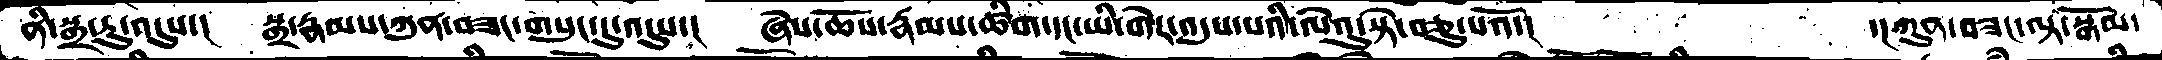ནི་སྒྲ་རུ་འདུས་།  སྒྲ་རྣམས་ཀུན་བཟང་གསུང་དུ་འདུས་།  ཞེས་ཆོས་རྣམས་ཚིག་དང་ཡི་གེར་འདུས་པའི་ལེའུ་སྟེ་བཅུ་པའོ་།        ་།ཀུན་་བཟང་ལྟ་སྒོམ་
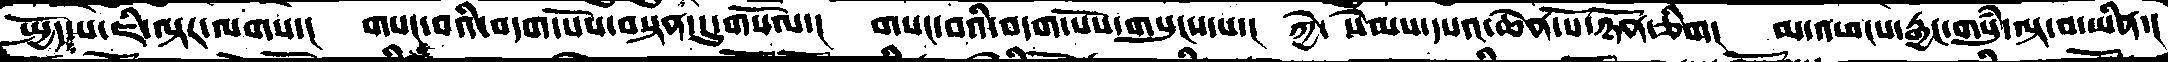སྤྱོད་པ་ཇི་ལྟར་ལགས་།  གསང་བའི་བདག་པོས་བསྟན་དུ་གསོལ་།  གསང་བའི་བདག་པོས་གསུངས་པ་།   ཀྱེ་ སེམས་དཔའ་ཆེན་པོ་ཉོན་ཅིག།  མ་འཕངས་རྒྱང་གསུཾ་ལྟ་བ་ཡིན་།
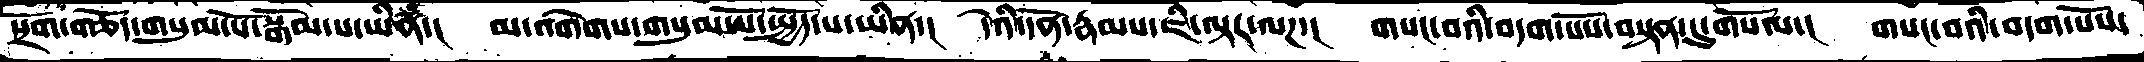སྲོག་གཅོད་གསུམ་པོ་སྒོམ་པ་ཡིན་།  མ་འགེགས་གསུམ་པོ་སྤྱོད་པ་ཡིན་།  དེའི་དོན་རྣམས་ཇི་ལྟར་ལཌ་།  གསང་བའི་བདག་པོས་བསྟན་དུ་གསོལ་།  གསང་བའི་བདག་པོས་
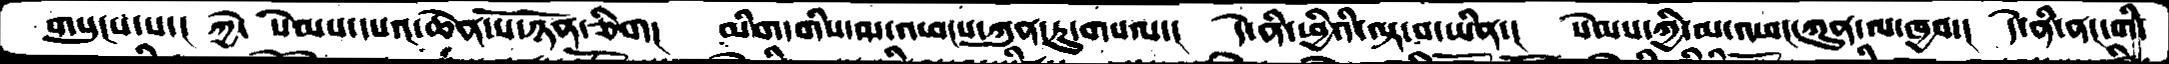གསུངས་པ་།  ཀྱེ་ སེམས་དཔའ་ཆེན་པོ་ཉོན་ཅིག།  མིག་གིས་མ་འཕངས་ཀུན་ཏུ་གསལ་།  དེ་ནི་ཕྱིའི་ལྟ་བ་ཡིན་།  སེམས་ཀྱི་མ་འཕང་ཀུན་ལ་ཁྱབ་།  དེ་ནི་ནང་གི་
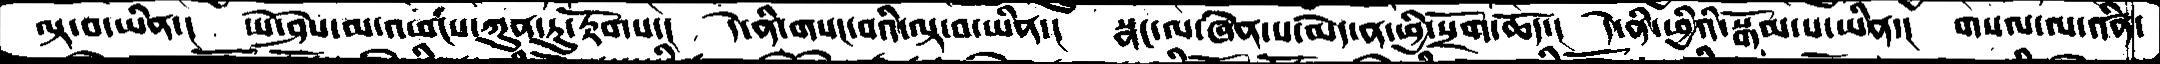ལྟ་བ་ཡིན་།  ཡེ་ཤེས་མ་འཕངས་ཀུན་ཏུ་རྟོགས་།  དེ་ནི་གསང་བའི་ལྟ་བ་ཡིན་། སྣང་ལ་ཞེན་པ་མེད་ན་ཕྱི་སྲོག་ཆོད་།  དེ་ནི་ཕྱིའི་སྒོམ་པ་ཡིན་།  གསལ་ལ་འཛིན་
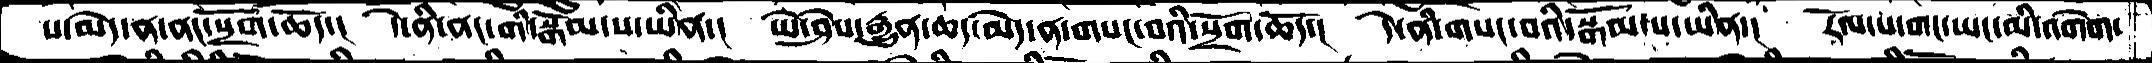པ་མེད་ན་ནང་སྲོག་ཆོད་།  དེ་ནི་ནང་གི་སྒོམ་པ་ཡིན་།  ཡེ་ཤེས་རྒྱུན་ཆད་མེད་ན་གསང་བའི་སྲོག་ཆོད་།  དེ་ནི་གསང་བའི་སྒོམ་པ་ཡིན་།  རོལ་པ་གང་ཡང་མི་འགེག་
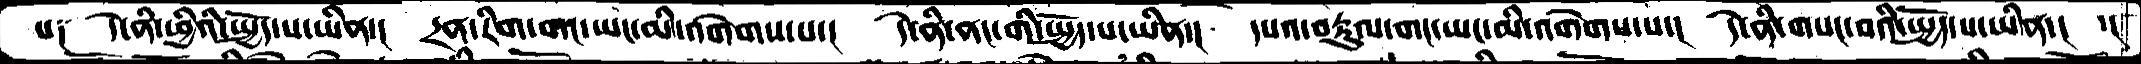པ༑  དེ་ནི་ཕྱིའི་སྤྱོད་པ་ཡིན་།  དྲན་རིག་གང་ཡང་མི་འགེགས་པ་།  དེ་ནི་ནང་གི་སྤྱོད་པ་ཡིན་།  དཔའ་བརྟུལ་གང་ཡང་མི་འགེགས་པ་།  དེ་ནི་གསང་བའི་སྤྱོད་པ་ཡིན་།  ་།
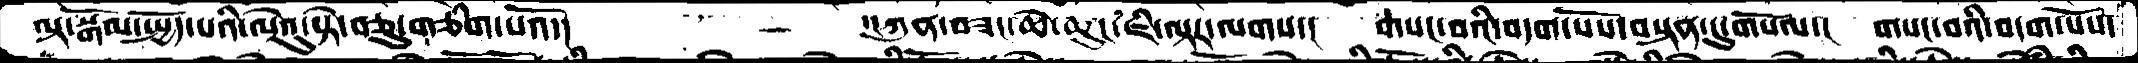ལྟ་སྒོམ་སྤྱོད་པའི་ལེའུ་སྟེ་བཅུ་གཅིག་པའོ་།          ་།ཀུན་བཟང་ཆེ་ཆུང་ཇི་ལྟར་ལགས་།  གསང་བའི་བདག་པོས་བསྟན་དུ་གསོལ་།  གསང་བའི་བདག་པོས་
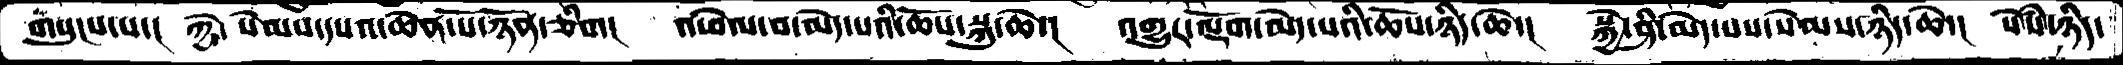གསུངས་པ་།   ཀྱེ་ སེམས་དཔའ་ཆེན་པོ་ཉོན་ཅིག།  འཕེལ་བ་མེད་པའི་ཆོས་སྐུ་ཆེ་།  འགྱུར་ལྡོག་མེད་པའི་ཆོས་ཉིད་ཆེ་།  སྐྱེ་ཤི་མེད་པས་སེམས་ཉིད་ཆེ་།  སེཾས་ཉིད་
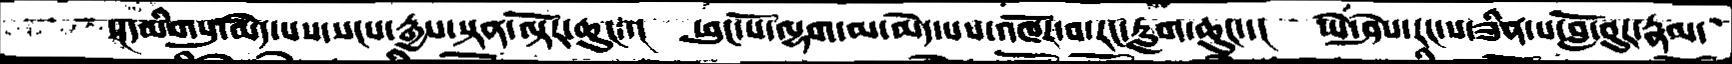་།དམིགསུ་མེད་པས་སངས་རྒྱས་སྟན་ལྟརོ་ཆུང་་།  ཕུང་པོ་ལྷག་མ་མེད་པས་འཁོར་བ་རང་རླག་ཆུང་་།  ཡེ་ཤེས་རང་ས་ཟིན་པ་བློ་བུར་རྣམ་
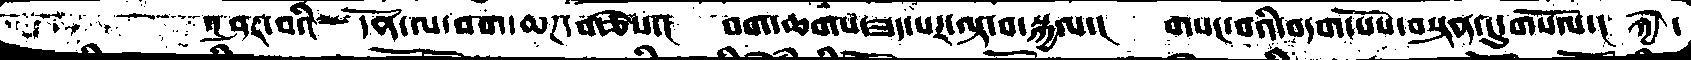་། ཤར་བའི་དོན་ལ་བག་ཆཌ་གཅེས་།   བག་ཆགས་ཟད་པར་ལྟ་བ་སྐྱལ་།  གསང་བའི་བདག་པོས་བསྟན་དུ་གསོལ་།  ཀྱེ་
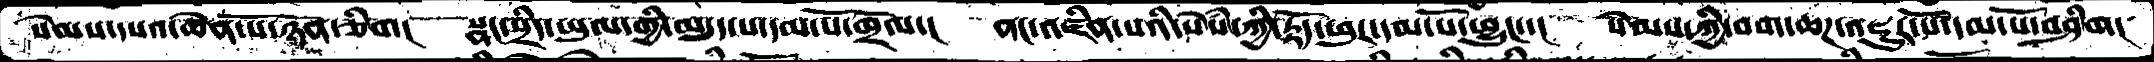སེམས་དཔའ་ཆེན་པོ་ཉོན་ཅིག།   སྣང་སྲིད་ཡུལ་གྱི་མདུད་པ་དམ་པོ་ཁྲོལ་།  ནང་འཛིན་པའི་སེཾས་ཀྱི་རྟོད་ཕུར་དམ་པོ་ཕྱུང་་།  སེམས་ཀྱི་བག་ཆཌ་འཇུར་པོ་དམ་པོ་བཤིག།
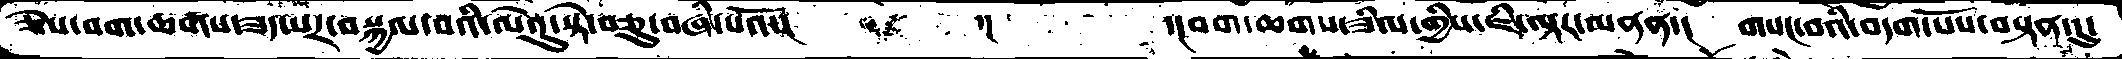ཅེས་བག་ཆགས་ཟད་པར་བསྐྱལ་བའི་ལེའུ་སྟེ་བཅུ་བཞི་པའོ་།      ་།     ་།བག་ཆགས་ཟིལ་གྱིས་ཇི་ལྟར་མནན་།   གསང་བའི་བདག་པོས་བསྟན་དུ་
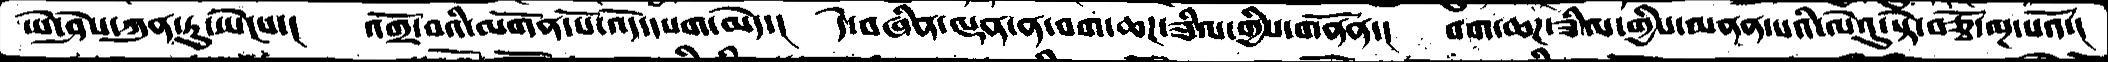ཡེ་ཤེས་ཀུན་ཏུ་ཡེངས་།  འགྲོ་བའི་མགོན་པོ་འོད་དཔག་མེད་།  དེ་བཞིན་ལྡན་ན་བག་ཆཌ་ཟིལ་གྱིས་གནོན་།  བག་ཆཌ་ཟིལ་གྱིས་མནན་པའི་ལེའུ་སྟེ་བཅྭོ་ལྔ་པའོ་།
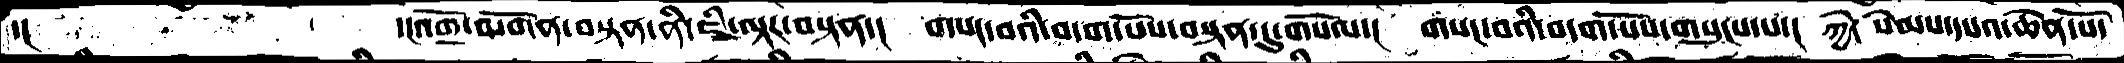་།        ་།འགྲོ་མགོན་བསྟན་ནི་ཇི་ལྟར་བསྟན་།  གསང་བའི་བདག་པོས་བསྟན་དུ་གསོལ་།  གསང་བའི་བདག་པོས་གསུངས་པ་།  ཀྱེ་ སེམས་དཔའ་ཆེན་པོ་
